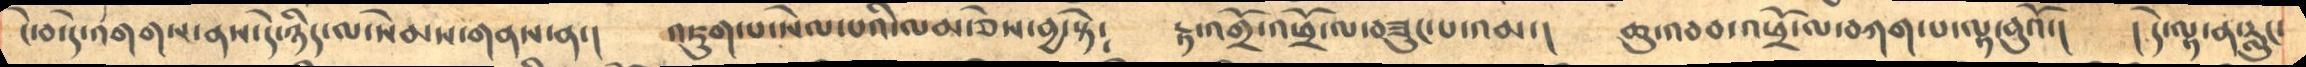ངེ་བ་དེ་འགགས་ནས་དེ་ཉིད་ལ་སེམས་གནས་ན་།   འཇུག་པ་སེལ་པའི་ལམ་ཅེས་བྱ་སྟེ༴   རྟ་འགྲོ་འཕྲོ་ལ་བཟུང་པ་འམ་།   ཆུ་འབབ་འཕྲོ་ལ་བཀག་པ་ལྟ་བུའོ་།  །དེ་ལྟ་ན་རླུང་
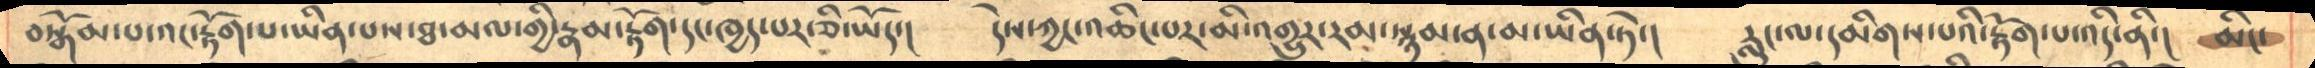བསྒོམ་པ་འང་རྟོག་པ་ཡིན་པས་ཐ་མལ་གྱི་རྣམ་རྟོག་དང་ཁྱད་པར་ཅི་ཡོད་།   དེས་ཀྱང་འཆིང་པར་མི་འགྱུར་རམ་སྙམ་ན་མ་ཡིན་ཏེ་།  རླུང་ལ་དམིགས་པའི་རྟོག་པ་འདི་ནི་།  མིང་
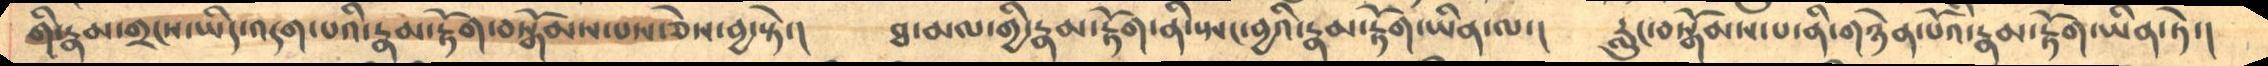གི་རྣམ་གྲངས་ཡིད་འདག་པའི་རྣམ་རྟོག་བསྒོམས་པས་ཅེས་བྱ་སྟེ་།   ཐ་མལ་གྱི་རྣམ་རྟོག་ནི་སྤང་བྱའི་རྣམ་རྟོག་ཡིན་ལ་།  རླུང་བསྒོམས་པ་ནི་གཉེན་པོའི་རྣམ་རྟོག་ཡིན་ཏེ་།
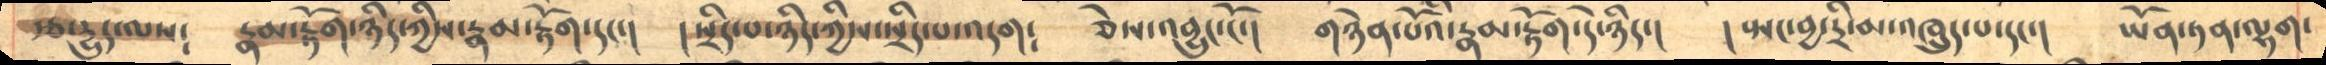རྩ་དྱུད་ལས༴   རྣམ་རྟོག་ཉིད་ཀྱིས་རྣམ་རྟོག་དང་།  །སྲིད་པ་ཉིད་ཀྱིས་སྲིད་པ་འདག༴   ཅེས་འབྱུང་ངོ་།   གཉེན་པོའི་རྣམ་རྟོག་དེ་ཉིད་།   །སྤང་བྱ་དྲི་མ་འཁྲུད་པ་དང་།   ཡོན་ཏན་ལྷག་
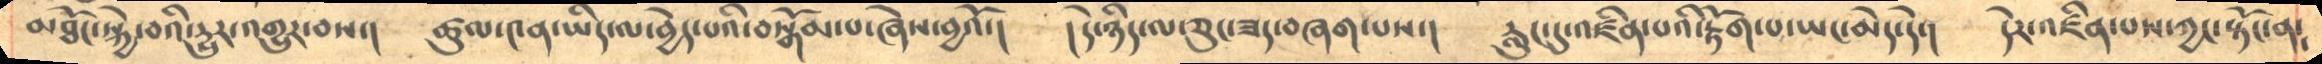མཐོང་སྐྱེ་བའི་དྱུར་འགྱུར་བས་།   ཚུལ་༤ན་ཡིད་ལ་བྱེད་པའི་བསྒོམ་པ་ཞེས་བྱའོ་།   །དེ་ཉིད་ལ་ཅུང་ཟད་བཞག་པས་།   རླུང་དུ་འཛིན་པའི་རྟོག་པ་ཡང་མེད་དེ་།  དེར་འཛིན་པས་ཀྱང་སྟོང་ན༴
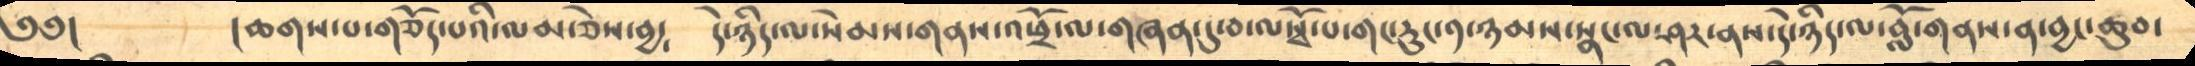༄༅།      །ཆགས་པ་གཅོད་པའི་ལམ་ཅེས་བྱ༴   དེ་ཉིད་ལ་སེམས་གནས་འཕྲོ་ལ་གཞན་དུ་བ་ལསྭོ་པ་གང་རུང་༡་ཉམས་སྣང་ལ་ཤར་ནས་དེ་ཉིད་ལ་བློ་གནས་ན་བྱང་ཆུབ་
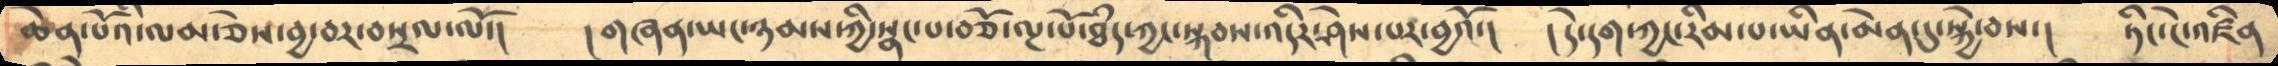ཆེན་པོའི་ལམ་ཅེས་བྱ་བར་བསྲལ་ལོ་།   །གཞན་ཡང་ཉམས་ཀྱི་སྣང་པ་བཅོ་ལྔ་པོ་ཐཾད་ཀྱང་སྐབས་འདིར་ཤེས་པར་བྱའོ་།   །དེ་དག་ཀྱང་རིམ་པ་ཡིན་མེན་དུ་སྐྱེ་བས་།   ཏིང་ངེ་འཛིན
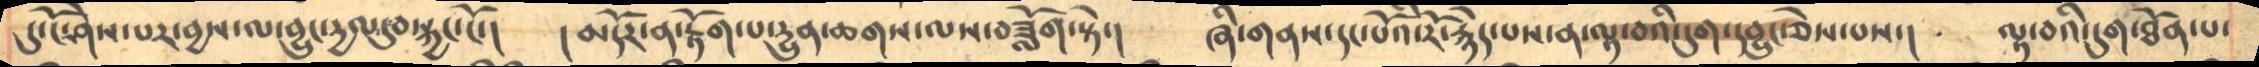དུ་ངོ་ཤེས་པར་བྱས་ལ་བྱུང་དྱལ་དུ་བསྐྱང་ངོ་།    །མདོར་ན་རྟོག་པ་དྱུན་ཆགས་ལས་བཟློག་སྟེ་།    ཞི་གནས་དང་པོའི་རོ་རྙེད་པས་ན་ལྟ་བའི་དུག་དབྱུང་ཅེས་པས་།   ལྟ་བའི་དུག་ཐོན་པ་
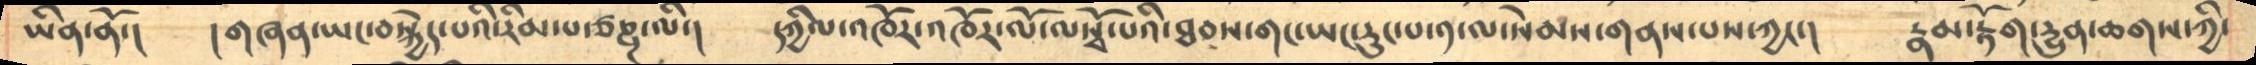ཡིན་ནོ་།    །གཞན་ཡང་བསྐྱེད་པའི་རིམ་པ་ཙཎྜ་ལི་།   དཀྱིལ་འཁོར་འཁོར་ལོ་ལསྭོ་པའི་ཐབས་གང་ཡང་རུང་པ་༡་ལ་སེམས་གནས་པས་ཀྱང་།   རྣམ་རྟོག་དྱུན་ཆགས་ཀྱི་
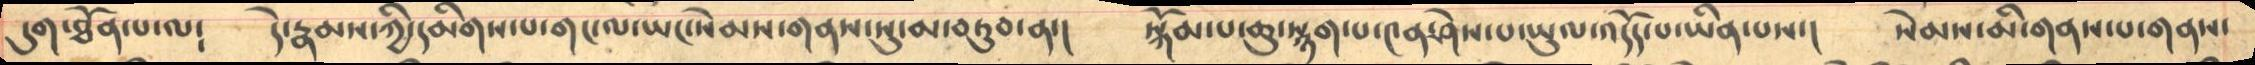དུག་ཐོན་པ་ལ༴    དེ་རྣམས་ཀྱི་དམིགས་པ་གང་ལ་ཡང་སེམས་གནས་སུ་མབཏུབ་ན་།  སྐོམ་པ་ཆུ་སྙག་པ་༤ན་ཤེས་པ་ཡུལ་འདོད་པ་ཡིན་པས་།   སེམས་མི་གནས་པ་གནས་
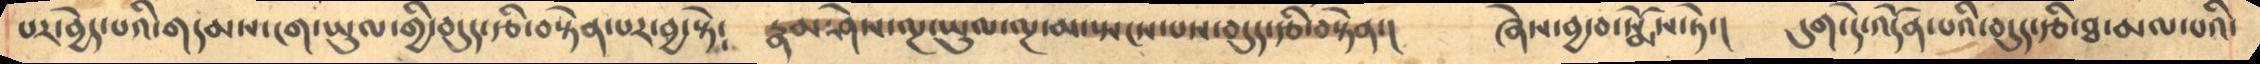པར་བྱེད་པའི་གདམས་ངག་ཡུལ་གྱི་བདུད་རྩི་བསྟེན་པར་བྱ་སྟེ༴   རྣམ་ཤེས་ལྔ་ཡུལ་ལྔ་མ་སྤངས་པས་བདུད་རྩི་བསྟེན་།   ཞེས་བྱ་བ་སྨོས་ཏེ་།  དུག་དེ་འདོན་པའི་བདུད་རྩི་ཐ་མལ་པའི་
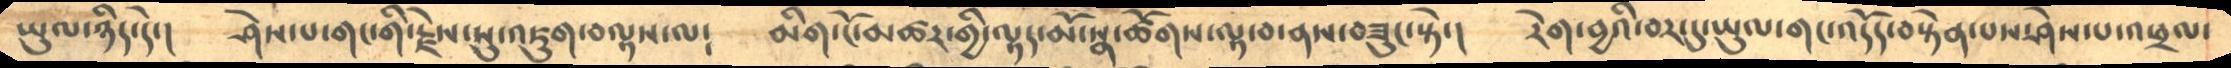ཡུལ་ཉིད་དེ་།   ཤེས་པ་གང་གི་རྗེས་སུ་འཇུག་བལྟས་ལ༴    མིག་ངོ་མཚར་གྱི་ལྟད་མོ་སྣ་ཚོགས་ལྟ་བ་ནས་བཟུང་སྟེ་།   རེག་བྱའི་བར་དུ་ཡུལ་གང་འདོད་བསྟེན་པས་ཤེས་པ་འཕྲལ་
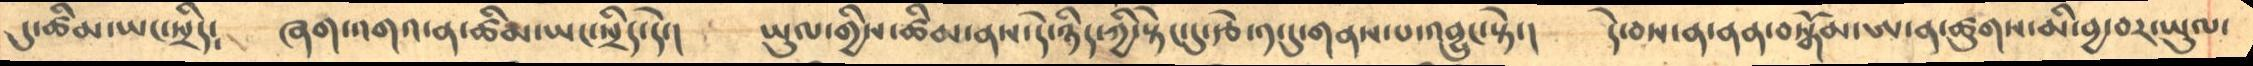དུ་ཚིམ་ཡང་སྲིད༴    ཞག་འགའ་ན་ཚིམ་ཡང་སྲིད་དེ་།  ཡུལ་གྱིས་ཚིམ་ནས་དེ་ཉིད་ཀྱི་སྟེང་དུ་རྩེ་༡་དུ་གནས་པ་འབྱུང་སྟེ་།   དེ་བས་ན་ནན་བསྒོམ་ཨ་ན་ཚུགས་མི་བྱ་བར་ཡུལ་
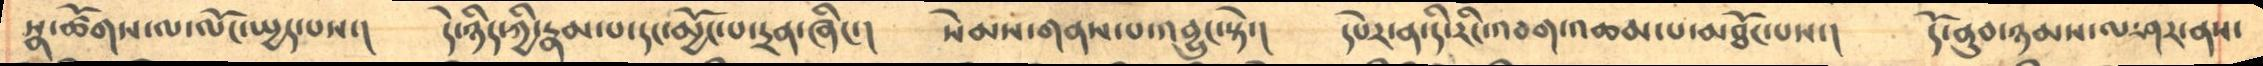སྣ་ཚོགས་ལ་ལོང་སྤྱད་པས་།    དེ་ཉིད་ཀྱི་རྣམ་པ་དང་མྱོང་པ་དྲན་ཞིང་།   སེམས་གནས་པ་འབྱུང་སྟེ་།    དཔེར་ན་དི་རིང་འབག་འཆམ་པ་མཐོང་པས་།   དོ་ནུབ་ཉམས་ལ་ཤར་ནས་
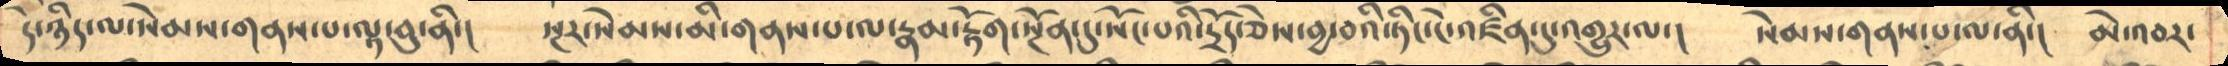དེ་ཉིད་ལ་སེམས་གནས་པ་ལྟ་བུ་ནི་།    སྔར་སེམས་མི་གནས་པ་ལ་རྣམ་རྟོག་སྔོན་དུ་སོང་པའི་དྲོད་ཅེས་བྱ་བའི་ཏིང་ངེ་འཛིན་དུ་འགྱུར་ལ་།   སེམས་གནས་པ་ལ་ནི་།   མེ་འབར་
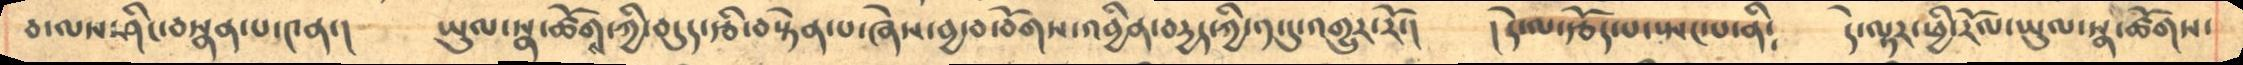བ་ལས་ཤིང་བསྣན་པ་༤ན་།    ཡུལ་སྣ་ཚོགས་ཀྱི་བདུད་རྩི་བསྟེན་པ་ཞེས་བྱ་བ་བོགས་འབྱིན་བདྱད་ཀྱི་༡་དུ་འགྱུར་རོ་།    །དེ་ལ་རྩོད་པ་སྤང་པ་ནི༴   དེ་ལྟར་ཕྱི་རོལ་ཡུལ་སྣ་ཚོགས་
